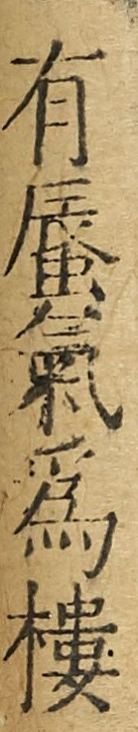有蜃氣為樓
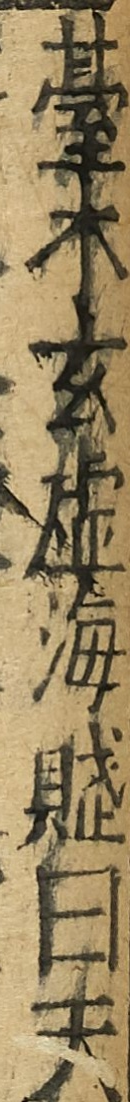臺木玄虛海賦曰天
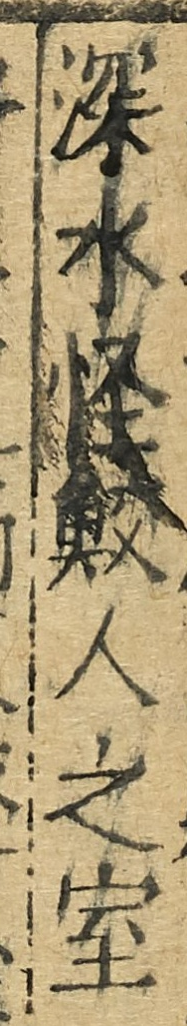深水怪鮫人之室
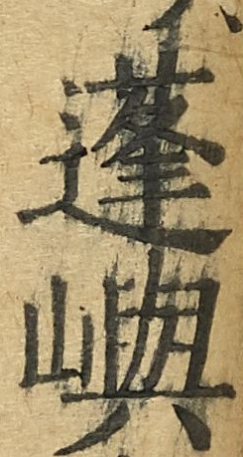蓬嶼
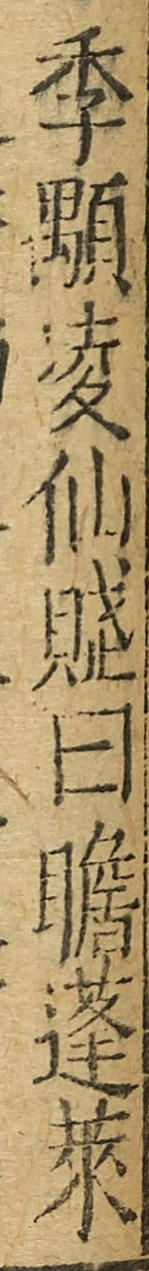李顒淩仙賦曰瞻蓬萊
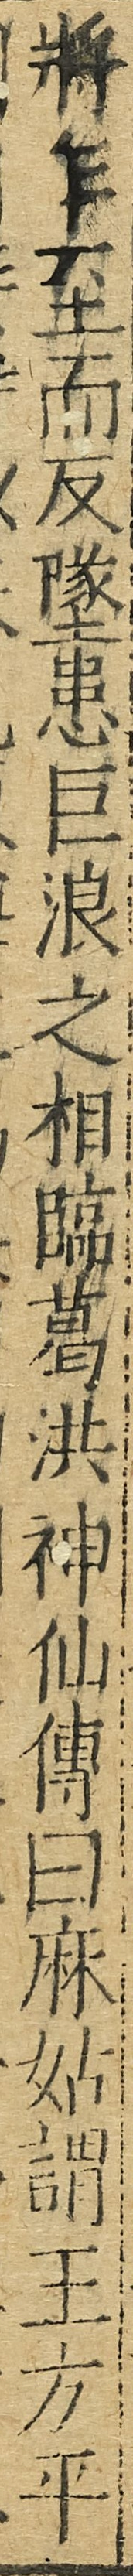將乍至而反墜患巨浪之相臨葛洪神仙傳曰麻姑謂王方平
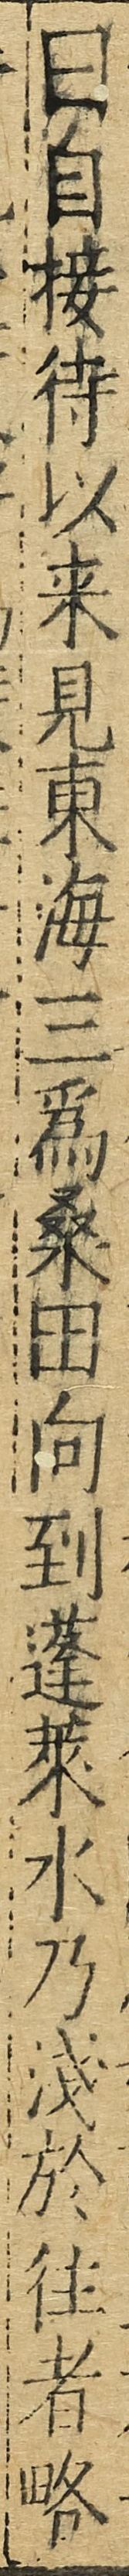曰自接待以來見東海三為桑田向到蓬萊水乃淺於往者略
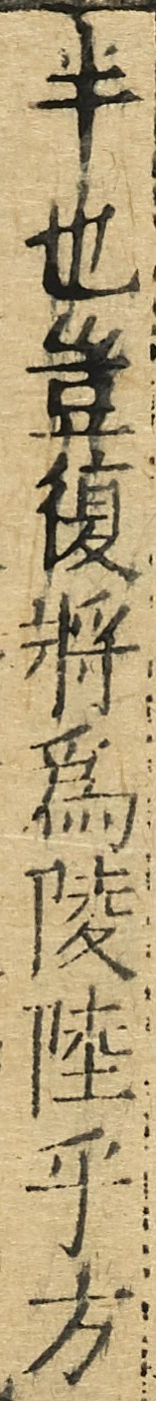半也豈復將為陵陸乎方
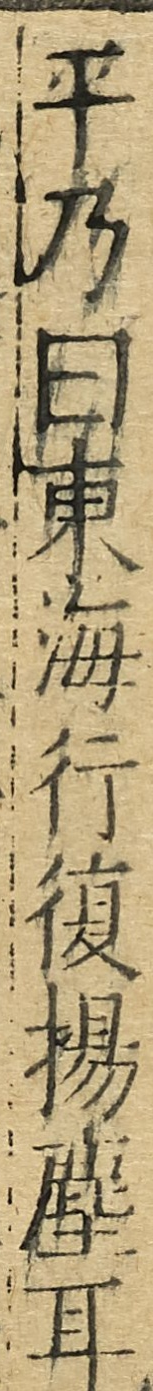平乃曰東海行復揚塵耳
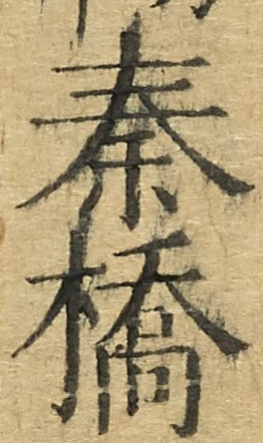秦橋
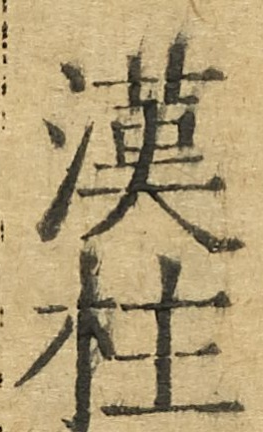漢柱
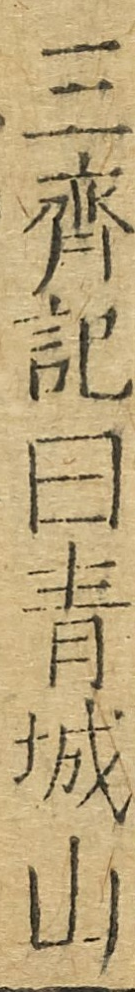三齊記曰青城山
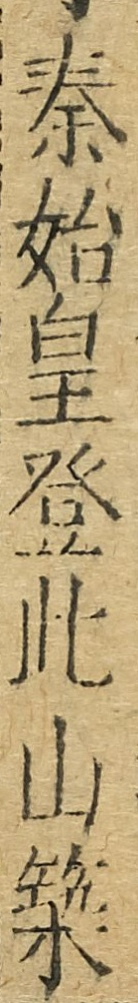秦始皇登此山築
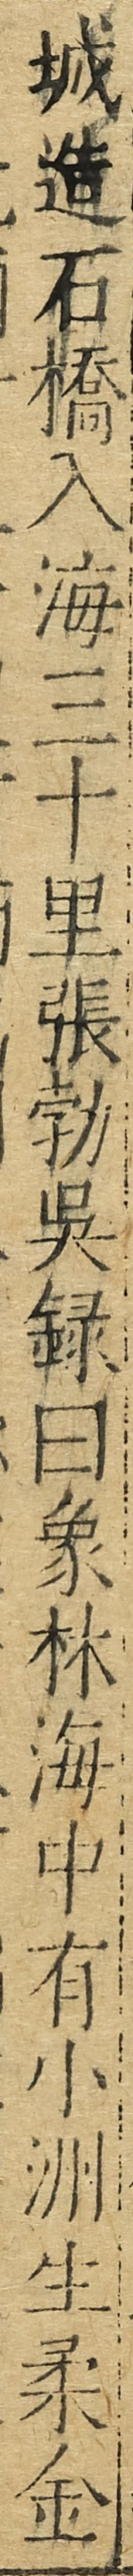城造石橋入海三十里張勃吳錄曰象林海中有小洲生柔金
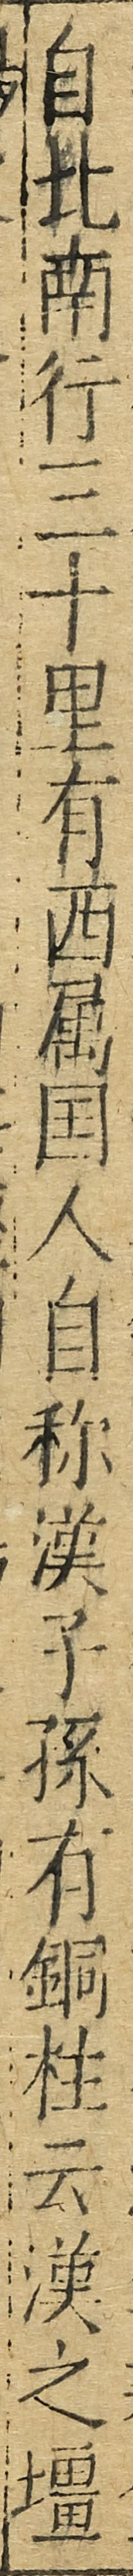自北南行三十里有西屬國人自稱漢子孫有銅柱云漢之壃
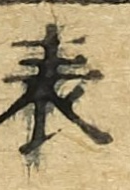表
